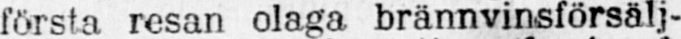första resan olaga brännvinsförsälj-
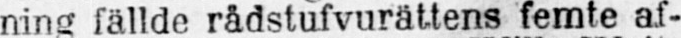ning fällde rådstufvurättens femte af-
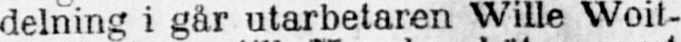delning i går utarbetaren Wille Woit-
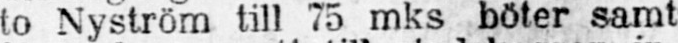to Nyström till 75 mks böter samt
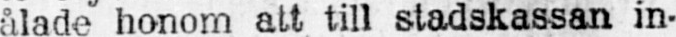ålade honom att till stadskassan in-
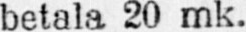betala 20 mk.
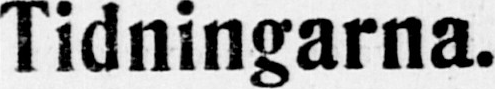Tidningarna.
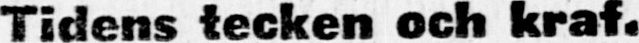Tidens tecken och kraf.
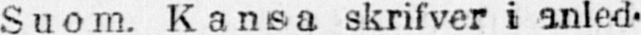Suom. Kansa skrifver i anled-
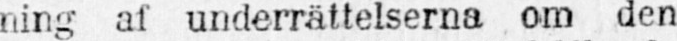ning af underrättelserna om den
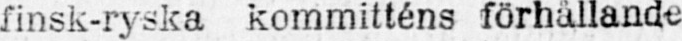finsk-ryska kommitténs förhallande
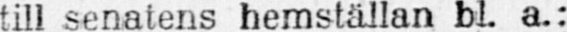till senatens hemställan bl. a.:
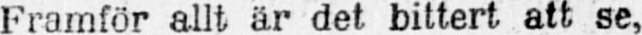Framför allt är det bittert att se,
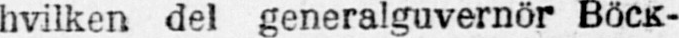hvilken del generalguvernör Böck-
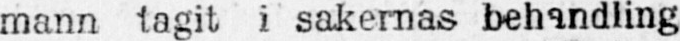mann tagit i sakernas behandling
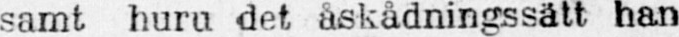samt huru det åskådningssätt han
